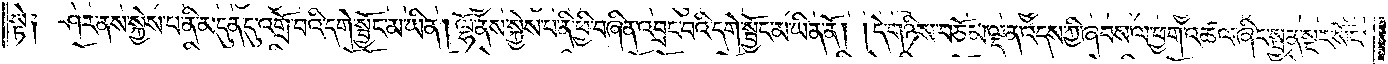སྟེ༑ ཤར་ནས་སྐྱེས་པ་ནི་མདུན་དུ་འགྲོ་བའི་དགེ་སྦྱོང་མ་ཡིན། ལྷོ་ནས་སྐྱེས་པ་ནི་ཕྱི་བཞིན་འབྲང་བའི་དགེ་སྦྱོང་མ་ཡིན་ནོ། །དེ་གཉིས་བཅོམ་ལྡན་འདས་ཀྱི་ཞབས་ལ་ཕྱག་འཚལ་ཞིང་སྤྱན་སྔར་སོང་
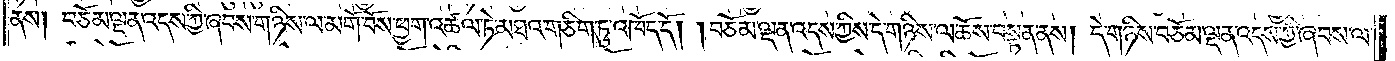ནས། བཅོམ་ལྡན་འདས་ཀྱི་ཞབས་གཉིས་ལ་མགོ་བོས་ཕྱག་འཚལ་ཏེ་མཐའ་གཅིག་ཏུ་འཁོད་དོ། །བཅོམ་ལྡན་འདས་ཀྱིས་དེ་གཉིས་ལ་ཆོས་བསྟན་ནས། དེ་གཉིས་བཅོམ་ལྡན་འདས་ཀྱི་ཞབས་ལ་
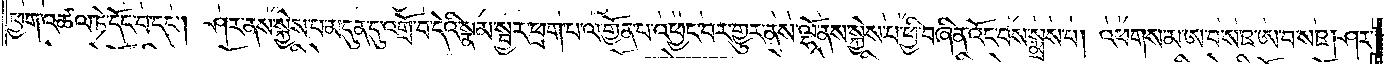ཕྱག་འཚལ་ཏེ་དོང་བ་དང༌། ཤར་ནས་སྐྱེས་པ་མདུན་དུ་འགྲོ་བ་དེའི་སྣམ་སྦྱར་ཕྲག་པ་ལ་གྱོན་པ་འཕྱང་བར་གྱུར་ནས་ལྷོ་ནས་སྐྱེས་པ་ཕྱི་བཞིན་འོང་བས་སྨྲས་པ། འཕགས་མ་ཨ་བ་ས་ཋ་ཨ་བ་ས་ཋ། ཤར་
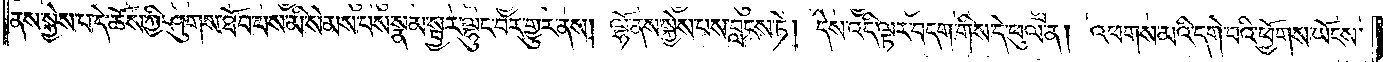ནས་སྐྱེས་པ་དེ་ཆོས་ཀྱི་ཤུགས་ཐོབ་པས་མི་སེམས་པས་སྣམ་སྦྱར་ལྷུང་བར་གྱུར་ནས། ལྷོ་ནས་སྐྱེས་པས་བླངས་ཏེ། དེས་འདི་ལྟར་བདག་གིས་དེ་ཕུལ་ན། འཕགས་མའི་དགེ་བའི་ཕྱོགས་ཡོངས་
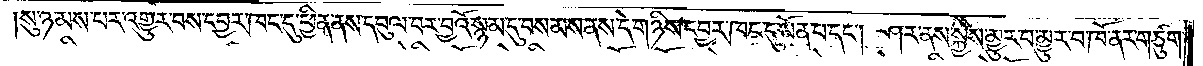།སུ་ཉམས་པར་འགྱུར་བས་དབྱར་ཁང་དུ་ཕྱིན་ནས་དབུལ་བར་བྱའོ་སྙམ་དུ་བསམས་ནས་དེ་གཉིས་དབྱར་ཁང་དུ་སོན་པ་དང༌། ཤར་ནས་སྐྱེས་མྱུར་བ་མྱུར་བ་ཁོ་ནར་གཙུག་
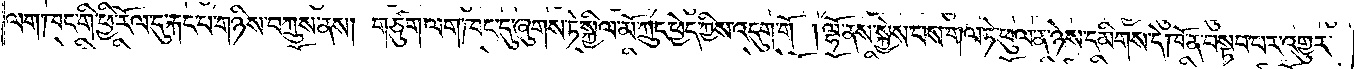ལག་ཁང་གི་ཕྱི་རོལ་དུ་རྐང་པ་གཉིས་བཀྲུས་ནས། གཙུག་ལག་ཁང་དུ་ཞུགས་ཏེ་སྐྱིལ་མོ་ཀྲུང་ཕྱེད་ཀྱིས་འདུག་གོ །ལྷོ་ནས་སྐྱེས་པས་གལ་ཏེ་ཕུལ་ན་ཉེས་དམིགས་དེ་ཁོ་ན་བསྟབ་པར་འགྱུར་
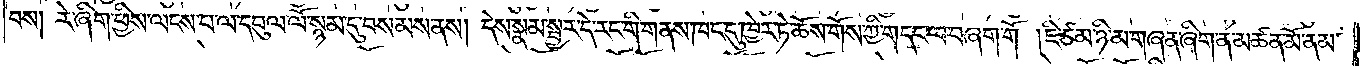བས། རེ་ཞིག་ཕྱིས་ལངས་པ་ལ་དབུལ་ལོ་སྙམ་དུ་བསམས་ནས། དེས་སྣམ་སྦྱར་དེ་རང་གི་གནས་ཁང་དུ་ཁྱེར་ཏེ་ཆོས་གོས་ཀྱི་གདང་ལ་བཞག་གོ །ཇི་ཙམ་ཉི་མ་གཞན་ཞིག་ན་མཚན་མོ་ནམ་
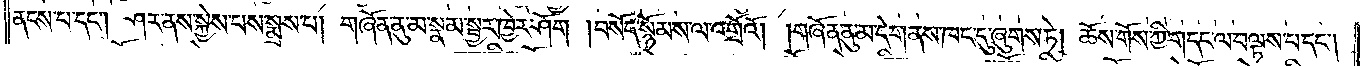ནངས་པ་དང༌། ཤར་ནས་སྐྱེས་པས་སྨྲས་པ། གཞོན་ནུ་མ་སྣམ་སྦྱར་ཁྱེར་ཤོག །བསོད་སྙོམས་ལ་འགྲོའོ། །གཞོན་ནུ་མ་དེ་གནས་ཁང་དུ་ཞུགས་ཏེ། ཆོས་གོས་ཀྱི་གདང་ལ་བལྟས་པ་དང༌།
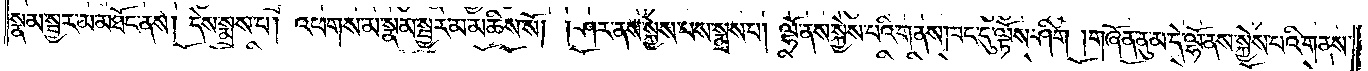སྣམ་སྦྱར་མ་མཐོང་ནས། དེས་སྨྲས་པ། འཕགས་མ་སྣམ་སྦྱར་མ་མཆིས་སོ། །ཤར་ནས་སྐྱེས་པས་སྨྲས་པ། ལྷོ་ནས་སྐྱེས་པའི་གནས་ཁང་དུ་ལྟོས་ཤིག །གཞོན་ནུ་མ་དེ་ལྷོ་ནས་སྐྱེས་པའི་གནས་
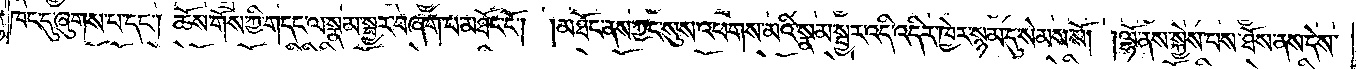ཁང་དུ་ཞུགས་པ་དང༌། ཆོས་གོས་ཀྱི་གདང་ལ་སྣམ་སྦྱར་བཞག་པ་མཐོང་ངོ༌། །མཐོང་ནས་ཀྱང་སུས་འཕགས་མའི་སྣམ་སྦྱར་འདི་འདིར་ཁྱེར་སྙམ་དུ་སེམས་སོ། །ལྷོ་ནས་སྐྱེས་པས་ཐོས་ནས་དེས་
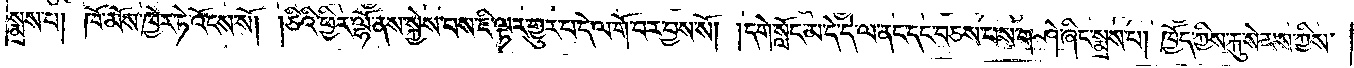སྨྲས་པ། ཁོ་མོས་ཁྱེར་ཏེ་འོངས་སོ། །ཅིའི་ཕྱིར་ལྷོ་ནས་སྐྱེས་པས་ཇི་ལྟར་གྱུར་པ་དེ་ལ་གོ་བར་བྱས་སོ། །དགེ་སློང་མ་དེ་དེ་ལ་ནང་དང་བཅས་པས་གཤེ་ཞིང་སྨྲས་པ། ཁྱོད་ཀྱིས་རྐུ་སེམས་ཀྱིས་
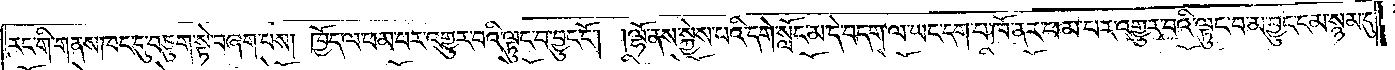རང་གི་གནས་ཁང་དུ་བཅུག་སྟེ་བཞག་པས། ཁྱོད་ལ་ཕམ་པར་འགྱུར་བའི་ལྟུང་བ་བྱུང་ངོ༌། །ལྷོ་ནས་སྐྱེས་པའི་དགེ་སློང་མ་དེ་བདག་ལ་ཡང་དག་པ་ཁོ་ནར་ཕམ་པར་འགྱུར་བའི་ལྟུང་བ་མ་བྱུང་ངམ་སྙམ་དུ་
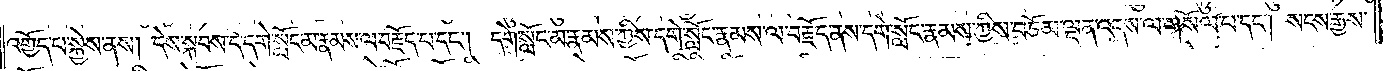འགྱོད་པ་སྐྱེས་ནས། དེས་སྐབས་དེ་དགེ་སློང་མ་རྣམས་ལ་བརྗོད་པ་དང༌། དགེ་སློང་མ་རྣམས་ཀྱིས་དགེ་སློང་རྣམས་ལ་བརྗོད་ནས་དགེ་སློང་རྣམས་ཀྱིས་བཅོམ་ལྡན་འདས་ལ་གསོལ་པ་དང༌། སངས་རྒྱས་
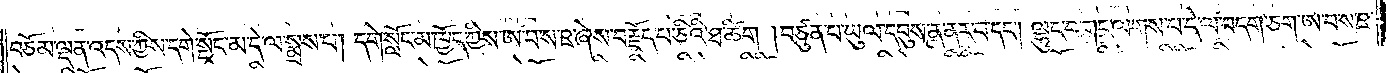བཅོམ་ལྡན་འདས་ཀྱིས་དགེ་སློང་མ་དེ་ལ་སྨྲས་པ། དགེ་སློང་མ་ཁྱོད་ཀྱིས་ཨ་བ་ས་ཋ་ཞེས་བརྗོད་པ་ཅིའི་ཐ་ཚིག །བཙུན་པ་ཡུལ་དབུས་ན་ནར་བ་དང༌། ལྷུང་བ་གང་ལགས་པ་དེ་ལ་བདག་ཅག་ཨ་བ་ས་ཋ་
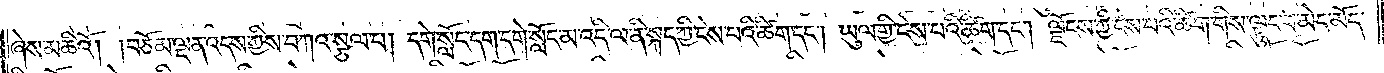ཞེས་མཆིའོ། །བཅོམ་ལྡན་འདས་ཀྱིས་བཀའ་སྩལ་པ། དགེ་སློང་དག་དགེ་སློང་མ་འདི་ལ་ནི་སྐད་ཀྱི་ངེས་པའི་ཚིག་དང༌། ཡུལ་གྱི་ངེས་པའི་ཚིག་དང༌། ལྗོངས་ཀྱི་ངེས་པའི་ཚིག་གིས་ལྟུང་བ་མེད་མོད་
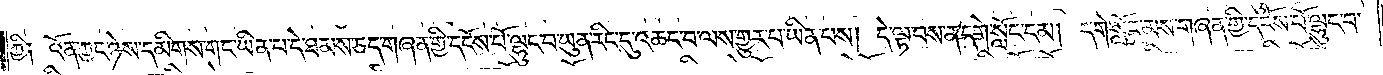ཀྱི༑ འོན་ཀྱང་ཉེས་དམིགས་གང་ཡིན་པ་དེ་ཐམས་ཅད་གཞན་གྱི་དངོས་པོ་ལྷུང་བ་ཡུན་རིང་དུ་འཆང་བ་ལས་གྱུར་པ་ཡིན་པས། དེ་ལྟ་བས་ན་དགེ་སློང་ངམ། དགེ་སློང་མས་གཞན་གྱི་དངོས་པོ་ལྷུང་བ་
